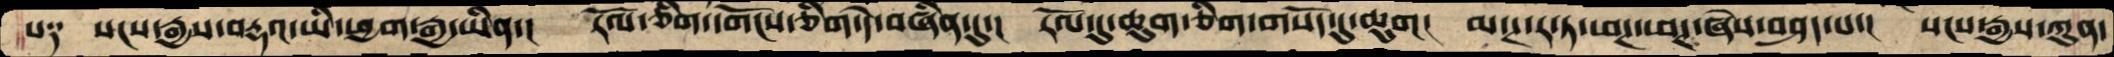པ༑   སངས་རྒྱས་བརྡའ་ཡི་ཕྱག་རྒྱ་ཡིན་།  རོལ་ཅིག་དགོངས་ཅིག་དེ་བཞིན་དུ་།  རོལ་དུ་ཆུག་ཅིག་གསོད་དུ་ཆུག།  མ་ཊ་ར་ཏ་ཕཊ་ཕཊ་ཞེས་བཤད་པ་།  སངས་རྒྱས་ཀུན་
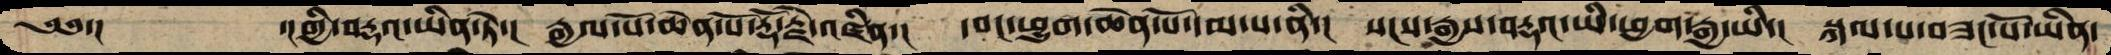༄༅་།     ་།གྱི་བརྡའ་ཡིན་ཏེ་།  རྒྱལ་པོ་ཆེན་པོ་རྡོ་རྗེ་འཛིན་།  དབང་ཕྱུག་ཆེན་པོ་དམ་པ་ནི་།  སངས་རྒྱས་བརྡའ་ཡི་ཕྱག་རྒྱ་ཡི་།  སྐལ་པ་བཟང་པོ་ཡིན་
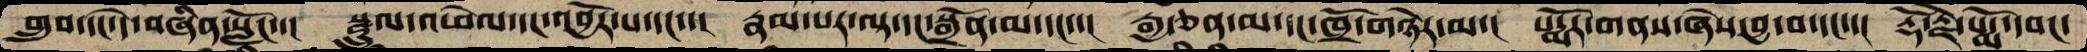གྲུབ་དང་དེ་བཞིན་སློང་་།  སྫྲུལ་འཕེལ་དང་འབྱོར་པ་དང་་།  རྣམ་པར་ལྟ་དང་སྒྲོན་མ་དང་་།  རྒྱ་ཅན་མ་དང་ཁྲོ་གཉེར་མ་།  པདྨོར་གནས་ཞེས་བྱ་བ་དང་་།  རྡོ་རྗེ་པདྨོ་དབང་
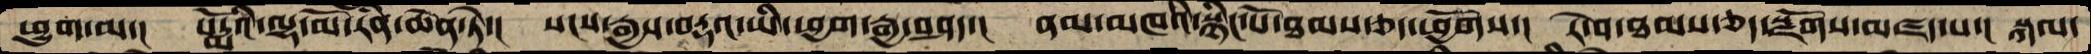ཕྱུག་ལ་།  པདྨོའི་ལྷ་མོ་རིན་ཆེན་ཏེ་།  སངས་རྒྱས་བརྡའ་ཡི་ཕྱག་རྒྱ་བཤད་།  ནམ་མཁའི་སྙིང་པོ་ཐམས་ཅད་ཕྱོགས་།  རེ་བ་ཐམས་ཅད་སྫོགས་མཛད་པ་།  སྐལ་
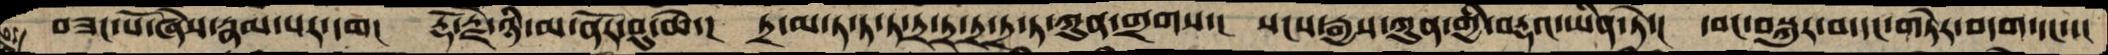བཟང་པོ་ཞེས་རྣམ་པར་དག།  རྡོ་རྗེ་ཉི་མ་ནོར་བུ་ཆེ་།  ཏྲ་མ་ཏ་ཏ་ཏྲ་ཏྲ་ཏྲ་ཏྲ་ཏ་ཀུན་གྲགས་།  སངས་རྒྱས་ཀུན་གྱི་བརྡའ་ཡིན་ཏེ་།  དབང་བསྐྱུར་བ་དང་གཏེར་བདག་དང་་།
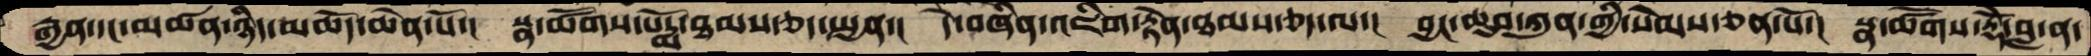རྒྱན་དང་མཚན་ཉིད་མཆོད་ཆེན་པོ་།  སྣ་ཚོགས་པདྨོ་ཐམས་ཅད་སྤྱན་།  དེ་བཞིན་འཇིག་རྟེན་ཐམས་ཅད་ལ་།  བྱང་ཆུབ་ཀུན་གྱི་སེམས་ཅན་པོ་།  སྣ་ཚོགས་རྡོེ་བླ་ན་
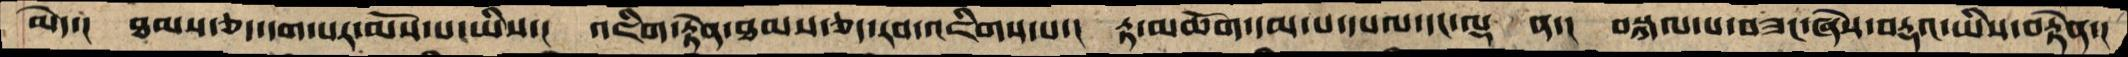མེད་།  ཐམས་ཅད་དག་པར་མོས་པ་ཡིས་།  འཇིག་རྟེན་ཐམས་ཅད་རབ་འཇིགས་པ་།  རྟ་མཆོག་དམ་པ་དཔལ་དང་ལྡ  ན་།  བསྐལ་པ་བཟང་ཞེས་བརྡའ་ཡིས་བརྟེན་།
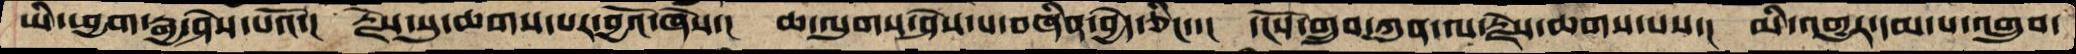ཡི་ཕྱག་རྒྱ་ཤེས་པའོ་།  རྗེས་སུ་ཆགས་པར་བྱའོ་ཞེས་།  ཆ་ལུགས་ཤེས་པ་བཞིན་བྱེད་ཅིང་།  དངོས་གྲུབ་ཀུན་ལ་རྗེས་ཆགས་པས་།  མི་འགྱུར་དམ་པ་འགྲུབ་
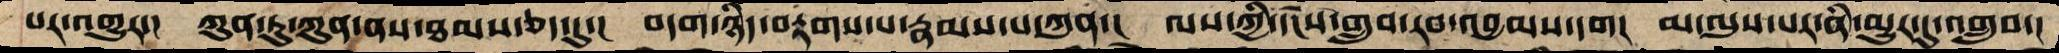པར་འགྱུར་།  ཀུན་ཏུ་ཀུན་ནས་ཐམས་ཅད་དུ་།  བདག་ཉིད་བརྟགས་པ་རྣམས་པ་ཀུན་།  ལས་ཀྱི་དངོས་གྲུབ་རབ་འབྱམས་དག།  མ་ལུས་པར་ནི་མྱུར་དུ་འགྲུབ་།
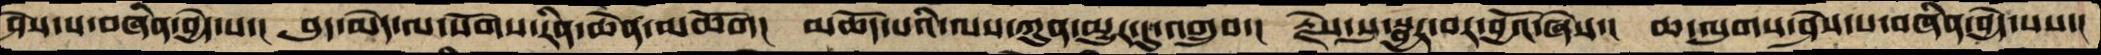ཤེས་པ་བཞིན་བྱེད་པ་།  བུད་མེད་ལ་སོགས་རིན་ཆེན་མཆོག།  མཆོད་པའི་ལས་ཀུན་མྱུར་དུ་འགྲུབ་།  རྗེས་སུ་སྦྱར་བར་བྱའོ་ཞེས་།  ཆ་ལུགས་ཤེས་པ་བཞིན་བྱེད་པས་།
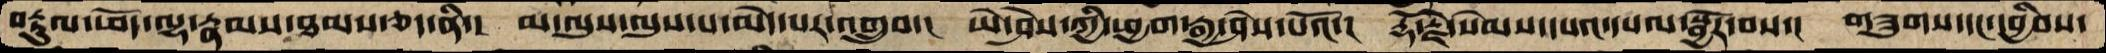བརྟུལ་ཕོད་ལྷ་རྣམས་ཐམས་ཅད་ནི་།  མ་ལུས་ལུས་པ་མེད་པར་འགྲུབ་།  ཡེ་ཤེས་ཀྱི་ཕྱག་རྒྱ་ཤེས་པའོ་།  རྡོ་རྗེ་སེམས་དཔའ་དཔལ་སྦྱོར་བས་།  གཟུགས་དང་དབྱིབས་
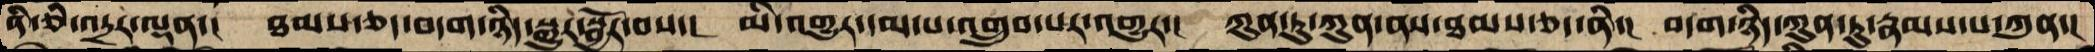ནི་ཅི་འདྲར་ལྡན་།  ཐམས་ཅད་བདག་ཉིད་སྒྱུར་སྦྱོར་བས་།  མི་འགྱུར་དམ་པ་འགྲུབ་པར་འགྱུར་།  ཀུན་ཏུ་ཀུན་ནས་ཐམས་ཅད་ནི་།  བདག་ཉིད་ཀུན་ཏུ་རྣམས་པ་ཀུན་།
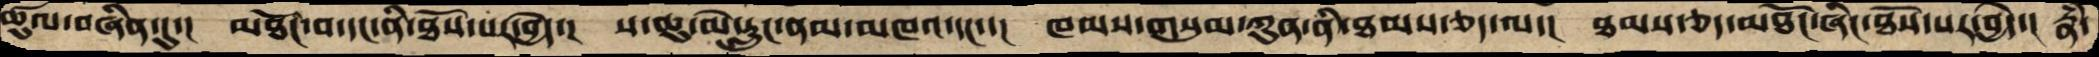ཚུལ་བཞིན་དུ་།  མཐོང་བ་དང་ནི་ཐོས་པར་བྱེད་།  ས་ཆུ་མེ་རླུང་ནམ་མཁའ་དང་་།  ཁམས་གསུམ་ཀུན་ནི་ཐམས་ཅད་ལ་།  ཐམས་ཅད་མཐོང་ཞིང་ཐོས་པར་བྱེད་།  རྣཾ་
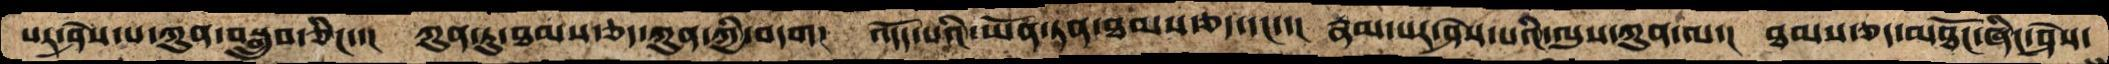པར་ཤེས་པ་ཀུན་བསྒྲུབ་ཅིང་་།  ཀུན་ཏུ་ཐམས་ཅད་ཀུན་ཀྱི་བདག།  འདོད་པའི་ཡོན་ཏན་ཐམས་ཅད་དང་་།  རྣམ་པར་ཤེས་པའི་ལུས་ཀུན་ལ་།  ཐམས་ཅད་མཐོང་ཞིང་ཤེས་
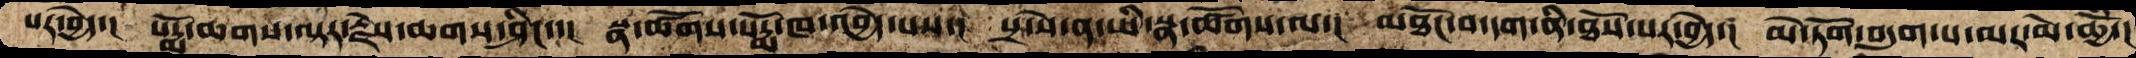པར་བྱེད་།  པདྨོ་ཆགས་ལྟར་རྗེས་ཆགས་ཤིང་་།  སྣ་ཚོགས་པདྨོ་ཁ་འབྱེད་པས་།  སྲ་སེ་ན་ཡི་སྣ་ཚོགས་ལ་།  མཐོང་བ་དག་ནི་ཐོས་པར་བྱེད་།  མེ་ཏོག་བདུག་པ་མར་མེ་ཆྱོི་།
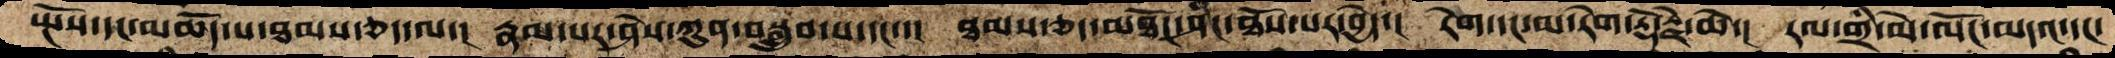སྤོས་དང་མཆོད་པ་ཐམས་ཅད་ལ་།  རྣམ་པར་ཤེས་ཀུན་བསྒྲུབ་པ་དང་་།  ཐམས་ཅད་མཐོང་ཤིང་ཐོས་པར་བྱེད་།  རེག་དང་མ་རེག་རྡོ་རྗེ་ཆེ་།  རལ་གྲི་མེ་ལོང་མདའ་དང་
